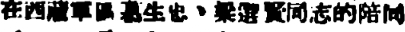在西藏軍區慕生忠、梁選賢同志的陪同
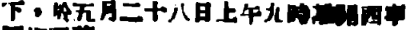下，於五月二十八日上午九時離開西寧
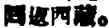囘返西藏。
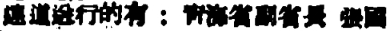遠道送行的有：靑海省副省長 張國
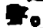聲。
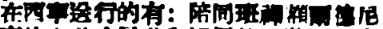在西寧送行的有：陪同班禪額爾德尼
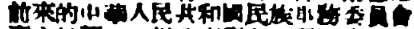前來的中國人民共和國民族事務委員會
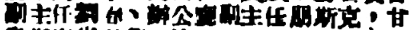副主任劉春、辦公廳副主任朋斯克，甘
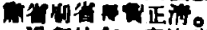肅省副省長黃正清。
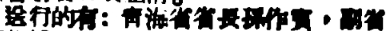送行的有：靑海省省長孫作賓，副省
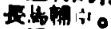長馬輔臣。
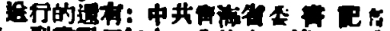送行的還有：中共靑海省委 書 記高
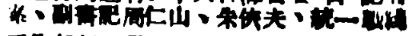峯、副書記周仁山、朱俠夫、統一戰綫
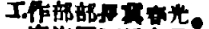工作部部長冀春光。
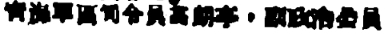靑海軍區司令員高朗亭，副政治委員
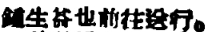鍾生益也前往送行。
